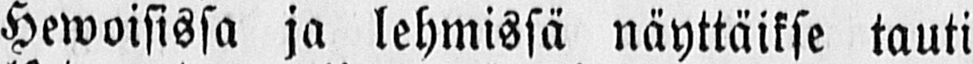Hewoisissa ja lehmissä näyttäikse tauti
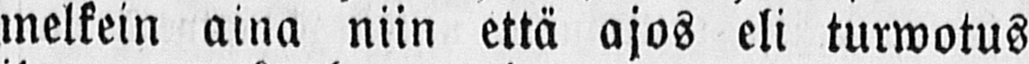melkein aina niin että ajos eli turwotus
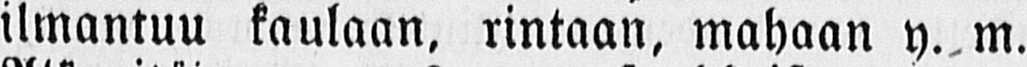ilmantuu kaulaan, rintaan, mahaan y. m.
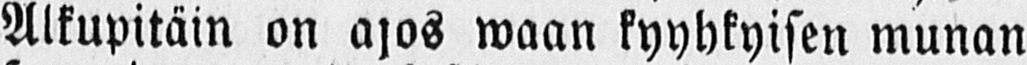Alkupitäin on ajos waan kyyhkyisen munan
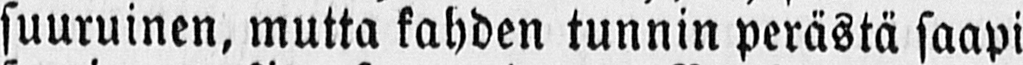suuruinen, mutta kahden tunnin perästä saapi
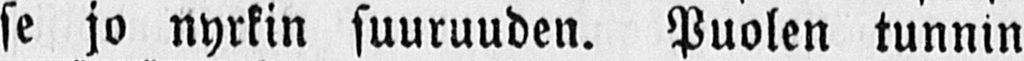se jo nyrkin suuruuden. Puolen tunnin
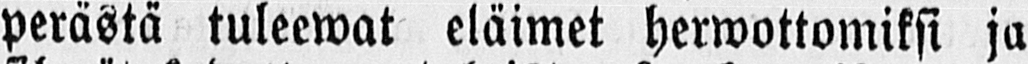perästä tuleewat eläimet herwottomiksi ja
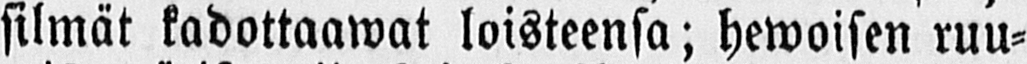silmät kadottaawat loisteensa; hewoisen ruu-
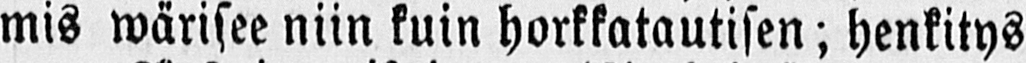mis wärisee niin kuin horkkatautisen; henkitys
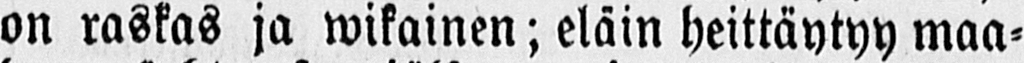on raskas ja wikainen; eläin heittäytyy maa-
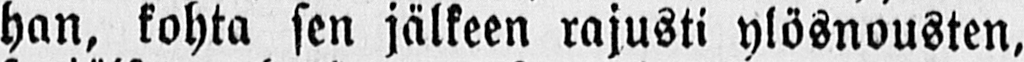han, kohta sen jälkeen rajusti ylösnousten,
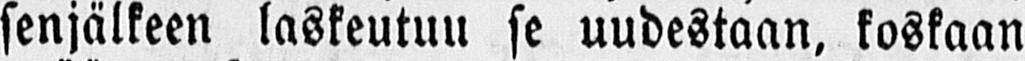senjälkeen laskeutuu se uudestaan, koskaan
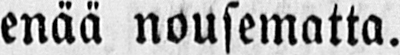enää nousematta.
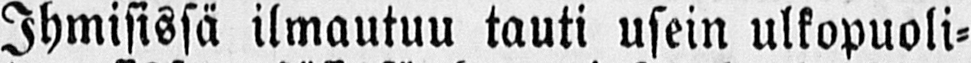Ihmisissä ilmautuu tauti usein ulkopuoli-
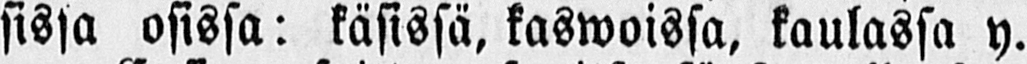sissa osissa: käsissä, kaswoissa, kaulassa y.
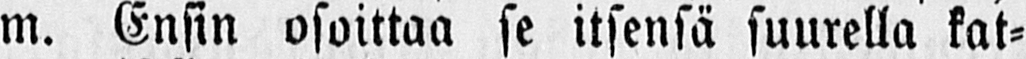m. Ensin osoittaa se itsensä suurella kat-
